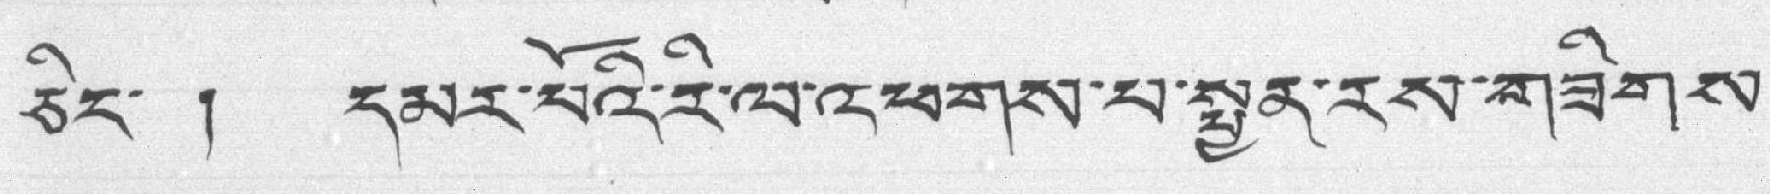ཅིང་ ། དམར་པོའི་རི་ལ་འཕགས་པ་སྦྱན་རས་གཟིགས་
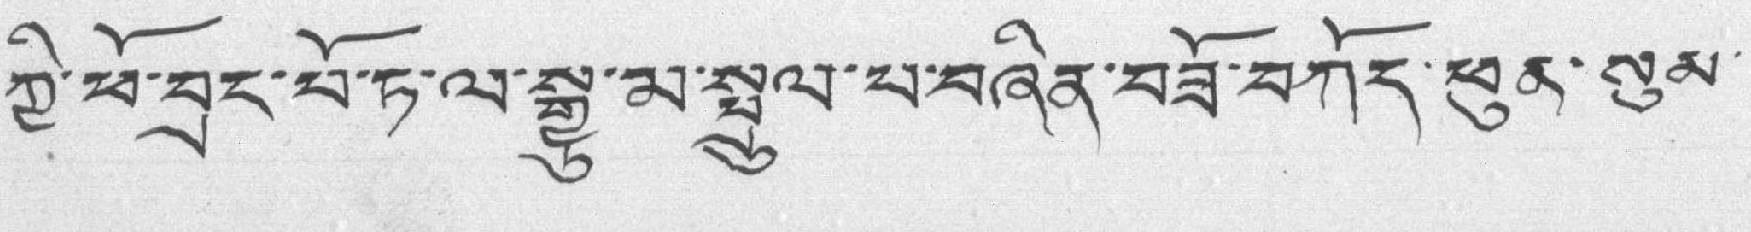ཀྱི་ཕོ་བྲང་པོ་ཏ་ལ་སྒྱུ་མ་སྤྲུལ་པ་བཞིན་བཟོ་བཀོད་ཕུན་སུམ་
